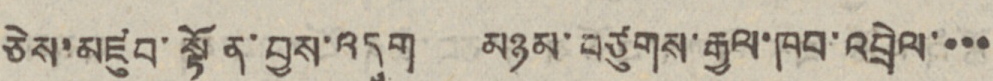ཅེས་མཛུབ་སྟོན་བྱས་འདུག མཉམ་བཙུགས་རྒྱལ་ཁབ་འབྲེལ་་་་
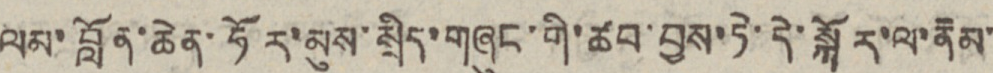ལམ་བློན་ཆེན་ཧོར་མུས་སྲིད་གཞུང་གི་ཚབ་བྱས་ཏེ་དེ་སྐོར་ལ་རྣམ་
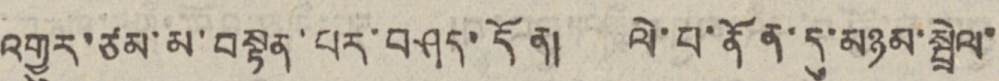འགྱུར་ཙམ་མ་བསྟན་པར་བཤད་དོན། ལེ་པ་ནོན་དུ་མཉམ་སྦྲེལ་
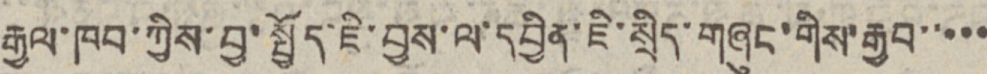རྒྱལ་ཁབ་ཀྱིས་བྱ་སྤྱོད་ཇི་བྱས་ལ་དབྱིན་ཇི་སྲིད་གཞུང་གིས་རྒྱབ་་་་་
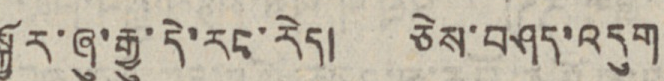སྐྱོར་ཞུ་རྒྱུ་དེ་རང་རེད། ཅེས་བཤད་འདུག
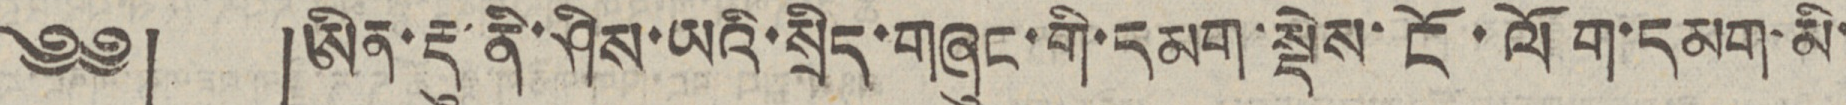༄༅། །ཨིན་རྡུ་ནི་ཤིས་ཡའི་སྲིད་གཞུང་གི་དམག་སྡེས་ངོ་ལོག་དམག་མི་
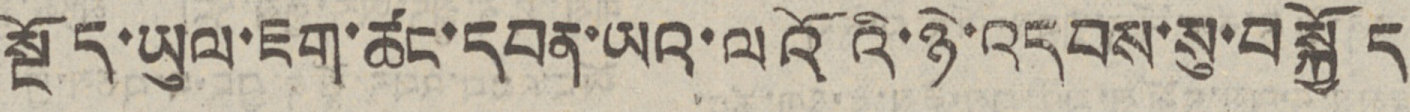སྔོད་ཡུལ་ཇག་ཚང་དབན་ཡའ་ལའོའི་ཉེ་འདབས་སུ་བསྐྱོད་
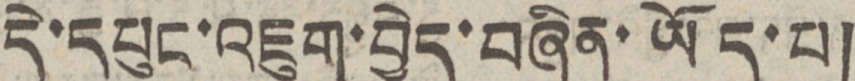དེ་དཔུང་འཇུག་བྱེད་བཞིན་ཡོད་པ།
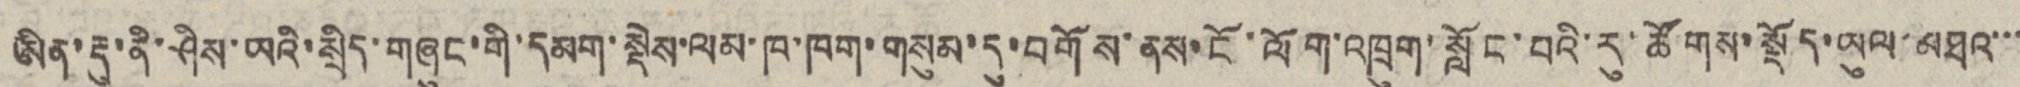ཨིན་རྡུ་ནི་ཤིས་ཡའི་སྲིད་གཞུང་གི་དམག་སྡེས་ལམ་ཁ་ཁག་གསུམ་དུ་བགོས་ནས་ངོ་ལོག་འཁྲུག་སློང་བའི་རུ་ཚོགས་སྡོད་ཡུལ་མཐའ་་་
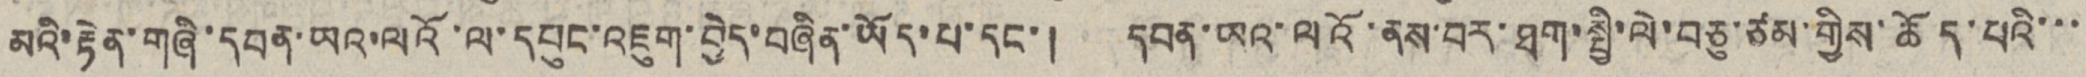མའི་རྟེན་གཞི་དབན་ཡའ་ལའོ་ལ་དཔུང་འཇུག་བྱེད་བཞིན་ཡོད་པ་དང་། དབན་ཡའ་ལའོ་ནས་བར་ཐག་སྤྱི་ལེ་བཅུ་ཙམ་གྱིས་ཆོད་པའི་་་
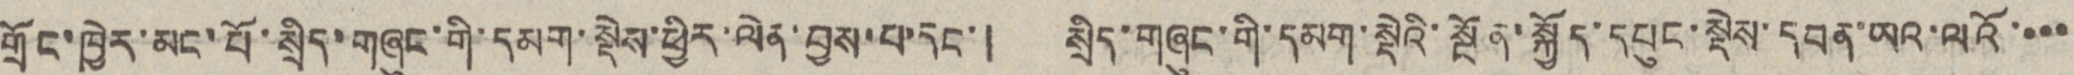གྲོང་ཁེར་མང་པོ་སྲིད་གཞུང་གི་དམག་སྡེས་ཕྱིར་ལེན་བྱས་པ་དང་། སྲིད་གཞུང་གི་དམག་སྡེའི་སྔོན་སྐྱོད་དཔུང་སྡེས་དབན་ཡའ་ལའོ་་་་
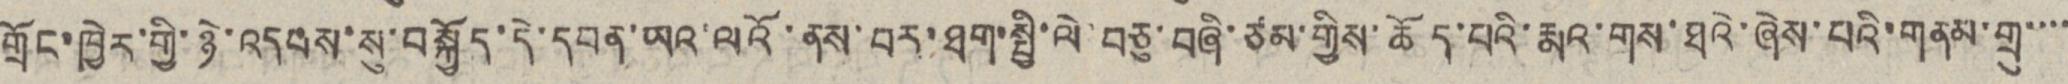གྲོང་ཁྱེར་གྱི་ཉེ་འདབས་སུ་བསྐྱོད་དེ་དབན་ཡའ་ལའོ་ནས་བར་ཐག་སྤྱི་ལེ་བཅུ་བཞི་ཙམ་གྱིས་ཆོད་པའི་རྨའ་གས་ཐའེ་ཞེས་པའི་གནམ་གྲུ་་་་
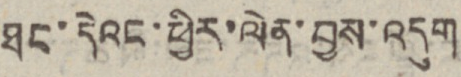ཐང་དེའང་ཕྱིར་ལེན་བྱས་འདུག
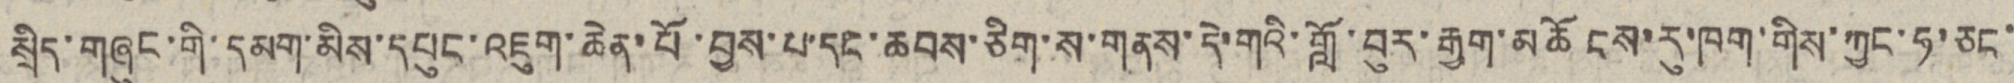སྲིད་གཞུང་གི་དམག་མིས་དཔུང་འཇུག་ཆེན་པོ་བྱས་པ་དང་ཆབས་ཅིག་ས་གནས་དེ་གའི་གློ་བུར་རྒྱག་མཆོངས་རུ་ཁག་གིས་ཀྱང་ཧ་ཅང་
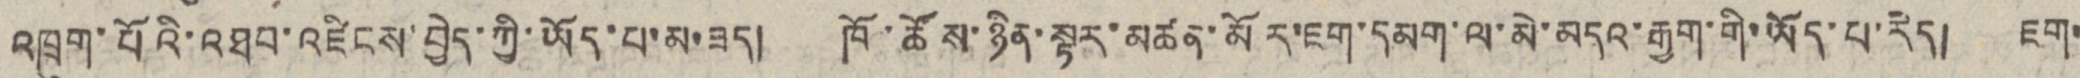འཁྲུག་པོའི་འཐབ་འཛིངས་བྱེད་ཀྱི་ཡོད་པ་མ་ཟད། ཁོ་ཚོས་ཉིན་སྟར་མཚན་མོར་ཇག་དམག་ལ་མེ་མདའ་རྒྱག་གི་ཡོད་པ་རེད། ཇག་
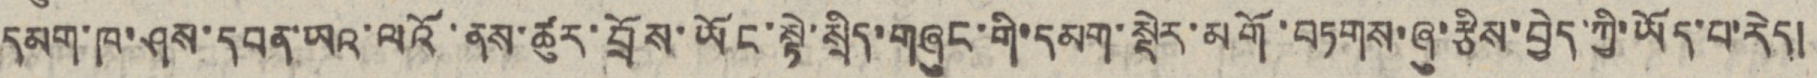དམག་ཁ་ཤས་དབན་ཡའ་ལའོ་ནས་ཚུར་བྲོས་ཡོང་སྟེ་སྲིད་གཞུང་གི་དམག་སྡེར་མགོ་བཏགས་ཞུ་རྩིས་བྱེད་ཀྱི་ཡོད་པ་རེད།
